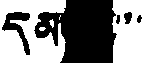དམ ་་་
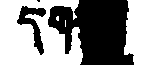དག
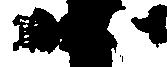第
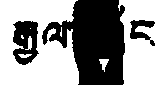རྒྱལ ང
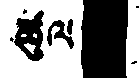ཚུལ
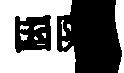国際
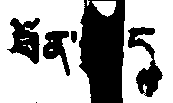ཐོན་སྐྱད
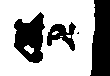ཚུལ
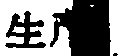生产
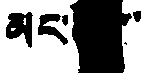མང་ ར་་
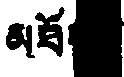མཐོ
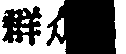群
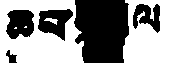ཆབ་ ལ
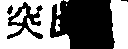突出
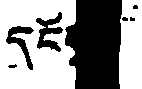དངོས
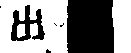出
